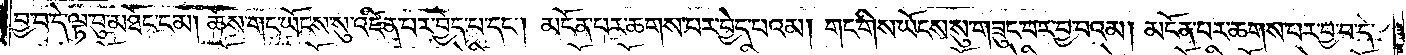བྱ་བ་དེ་ལྟ་བུ་མཐོང་ངམ། ཆོས་གང་ཡོངས་སུ་འཛིན་པར་བྱེད་པ་དང༌། མངོན་པར་ཆགས་པར་བྱེད་པའམ། གང་གིས་ཡོངས་སུ་གཟུང་བར་བྱ་བའམ། མངོན་པར་ཆགས་པར་བྱ་བ་དེ་
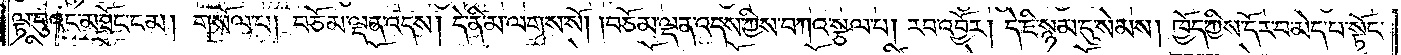ལྟ་བུའང་མཐོང་ངམ། གསོལ་པ། བཅོམ་ལྡན་འདས། དེ་ནི་མ་ལགས་སོ། །བཅོམ་ལྡན་འདས་ཀྱིས་བཀའ་སྩལ་པ། རབ་འབྱོར། དེ་ཇི་སྙམ་དུ་སེམས། ཁྱོད་ཀྱིས་དོར་བ་མེད་པ་སྟོང་
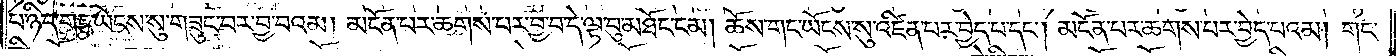པ་ཉིད་གང་ཡོངས་སུ་གཟུང་བར་བྱ་བའམ། མངོན་པར་ཆགས་པར་བྱ་བ་དེ་ལྟ་བུ་མཐོང་ངམ། ཆོས་གང་ཡོངས་སུ་འཛིན་པར་བྱེད་པ་དང༌། མངོན་པར་ཆགས་པར་བྱེད་པའམ། གང་
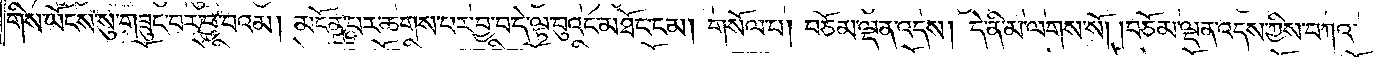གིས་ཡོངས་སུ་གཟུང་བར་བྱ་བའམ། མངོན་པར་ཆགས་པར་བྱ་བ་དེ་ལྟ་བུའང་མཐོང་ངམ། གསོལ་པ། བཅོམ་ལྡན་འདས། དེ་ནི་མ་ལགས་སོ། །བཅོམ་ལྡན་འདས་ཀྱིས་བཀའ་
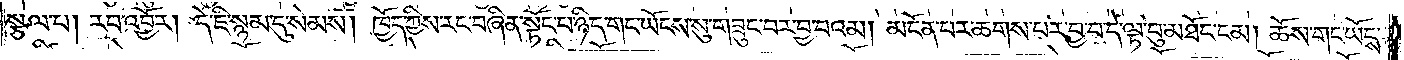སྩལ་པ། རབ་འབྱོར། དེ་ཇི་སྙམ་དུ་སེམས། ཁྱོད་ཀྱིས་རང་བཞིན་སྟོང་པ་ཉིད་གང་ཡོངས་སུ་གཟུང་བར་བྱ་བའམ། མངོན་པར་ཆགས་པར་བྱ་བ་དེ་ལྟ་བུ་མཐོང་ངམ། ཆོས་གང་ཡོངས་
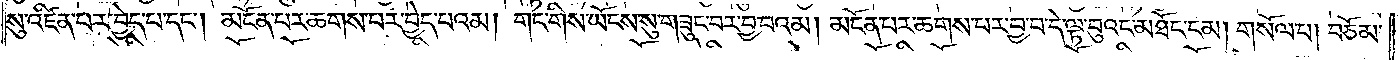སུ་འཛིན་པར་བྱེད་པ་དང༌། མངོན་པར་ཆགས་པར་བྱེད་པའམ། གང་གིས་ཡོངས་སུ་གཟུང་བར་བྱ་བའམ། མངོན་པར་ཆགས་པར་བྱ་བ་དེ་ལྟ་བུའང་མཐོང་ངམ། གསོལ་པ། བཅོམ་
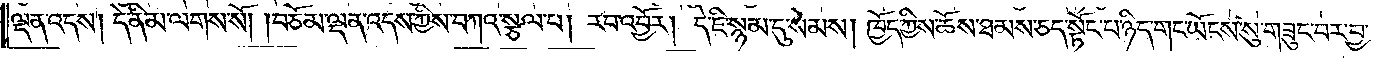ལྡན་འདས། དེ་ནི་མ་ལགས་སོ། །བཅོམ་ལྡན་འདས་ཀྱིས་བཀའ་སྩལ་པ། རབ་འབྱོར། དེ་ཇི་སྙམ་དུ་སེམས། ཁྱོད་ཀྱིས་ཆོས་ཐམས་ཅད་སྟོང་པ་ཉིད་གང་ཡོངས་སུ་གཟུང་བར་བྱ་
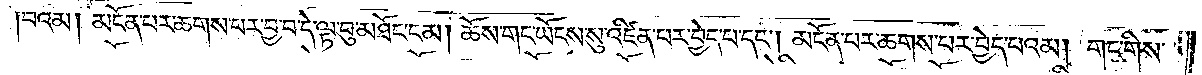བའམ། མངོན་པར་ཆགས་པར་བྱ་བ་དེ་ལྟ་བུ་མཐོང་ངམ། ཆོས་གང་ཡོངས་སུ་འཛིན་པར་བྱེད་པ་དང༌། མངོན་པར་ཆགས་པར་བྱེད་པའམ། གང་གིས་
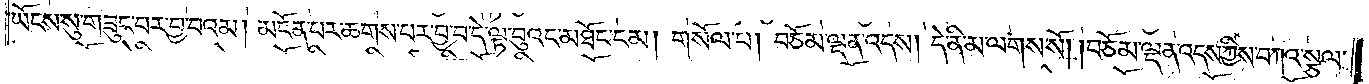ཡོངས་སུ་གཟུང་བར་བྱ་བའམ། མངོན་པར་ཆགས་པར་བྱ་བ་དེ་ལྟ་བུའང་མཐོང་ངམ། གསོལ་པ། བཅོམ་ལྡན་འདས། དེ་ནི་མ་ལགས་སོ། །བཅོམ་ལྡན་འདས་ཀྱིས་བཀའ་སྩལ་
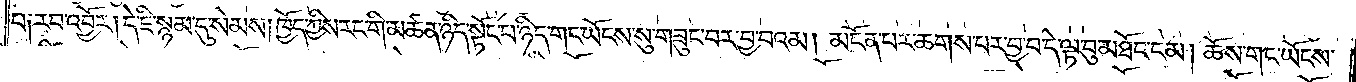པ༑ རབ་འབྱོར། དེ་ཇི་སྙམ་དུ་སེམས། ཁྱོད་ཀྱིས་རང་གི་མཚན་ཉིད་སྟོང་པ་ཉིད་གང་ཡོངས་སུ་གཟུང་བར་བྱ་བའམ། མངོན་པར་ཆགས་པར་བྱ་བ་དེ་ལྟ་བུ་མཐོང་ངམ། ཆོས་གང་ཡོངས་
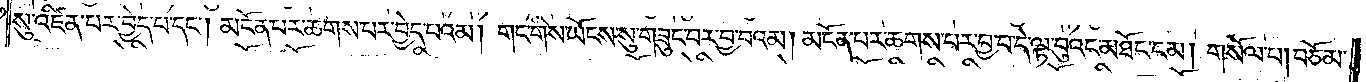སུ་འཛིན་པར་བྱེད་པ་དང༌། མངོན་པར་ཆགས་པར་བྱེད་པའམ། གང་གིས་ཡོངས་སུ་གཟུང་བར་བྱ་བའམ། མངོན་པར་ཆགས་པར་བྱ་བ་དེ་ལྟ་བུའང་མཐོང་ངམ། གསོལ་པ། བཅོམ་
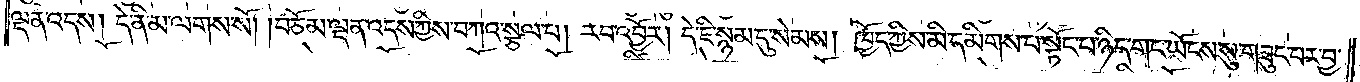ལྡན་འདས། དེ་ནི་མ་ལགས་སོ། །བཅོམ་ལྡན་འདས་ཀྱིས་བཀའ་སྩལ་པ། རབ་འབྱོར། དེ་ཇི་སྙམ་དུ་སེམས། ཁྱོད་ཀྱིས་མི་དམིགས་པ་སྟོང་པ་ཉིད་གང་ཡོངས་སུ་གཟུང་བར་བྱ་
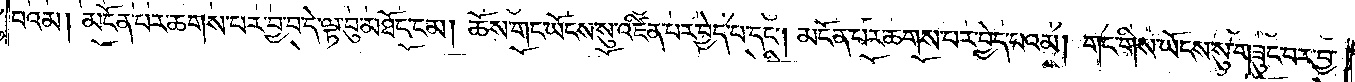བའམ། མངོན་པར་ཆགས་པར་བྱ་བ་དེ་ལྟ་བུ་མཐོང་ངམ། ཆོས་གང་ཡོངས་སུ་འཛིན་པར་བྱེད་པ་དང༌། མངོན་པར་ཆགས་པར་བྱེད་པའམ། གང་གིས་ཡོངས་སུ་གཟུང་བར་བྱ་
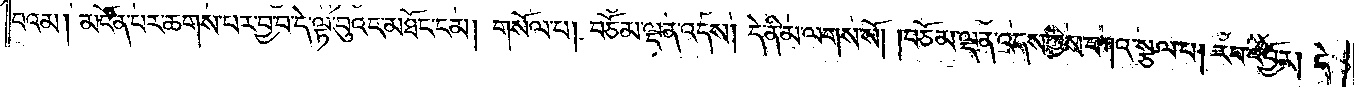བའམ། མངོན་པར་ཆགས་པར་བྱ་བ་དེ་ལྟ་བུའང་མཐོང་ངམ། གསོལ་པ། བཅོམ་ལྡན་འདས། དེ་ནི་མ་ལགས་སོ། །བཅོམ་ལྡན་འདས་ཀྱིས་བཀའ་སྩལ་པ། རབ་འབྱོར། དེ་
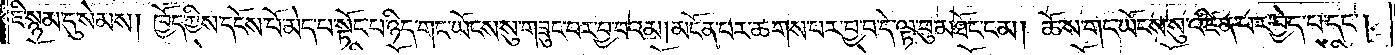ཇི་སྙམ་དུ་སེམས། ཁྱོད་ཀྱིས་དངོས་པོ་མེད་པ་སྟོང་པ་ཉིད་གང་ཡོངས་སུ་གཟུང་བར་བྱ་བའམ། མངོན་པར་ཆགས་པར་བྱ་བ་དེ་ལྟ་བུ་མཐོང་ངམ། ཆོས་གང་ཡོངས་སུ་འཛིན་པར་བྱེད་པ་དང༌།
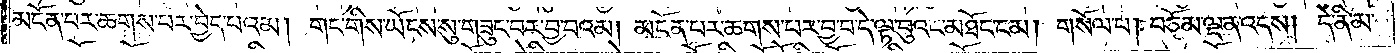མངོན་པར་ཆགས་པར་བྱེད་པའམ། གང་གིས་ཡོངས་སུ་གཟུང་བར་བྱ་བའམ། མངོན་པར་ཆགས་པར་བྱ་བ་དེ་ལྟ་བུའང་མཐོང་ངམ། གསོལ་པ། བཅོམ་ལྡན་འདས། དེ་ནི་མ་
